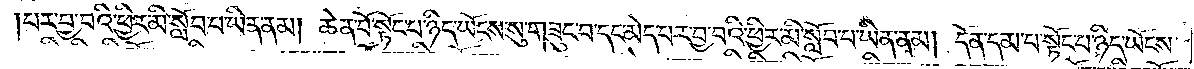པར་བྱ་བའི་ཕྱིར་མི་སློབ་པ་ཡིན་ནམ། ཆེན་པོ་སྟོང་པ་ཉིད་ཡོངས་སུ་གཟུང་བ་དང་མེད་པར་བྱ་བའི་ཕྱིར་མི་སློབ་པ་ཡིན་ནམ། དོན་དམ་པ་སྟོང་པ་ཉིད་ཡོངས་
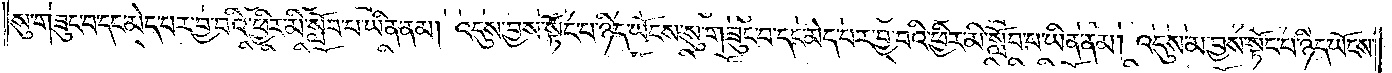སུ་གཟུང་བ་དང་མེད་པར་བྱ་བའི་ཕྱིར་མི་སློབ་པ་ཡིན་ནམ། འདུས་བྱས་སྟོང་པ་ཉིད་ཡོངས་སུ་གཟུང་བ་དང་མེད་པར་བྱ་བའི་ཕྱིར་མི་སློབ་པ་ཡིན་ནམ། འདུས་མ་བྱས་སྟོང་པ་ཉིད་ཡོངས་
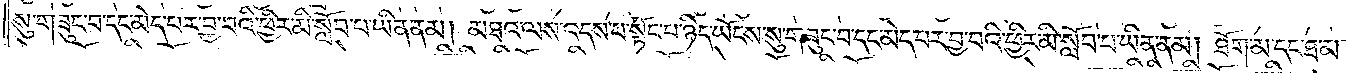སུ་གཟུང་བ་དང་མེད་པར་བྱ་བའི་ཕྱིར་མི་སློབ་པ་ཡིན་ནམ། མཐའ་ལས་འདས་པ་སྟོང་པ་ཉིད་ཡོངས་སུ་གཟུང་བ་དང་མེད་པར་བྱ་བའི་ཕྱིར་མི་སློབ་པ་ཡིན་ནམ། ཐོག་མ་དང་ཐ་མ་
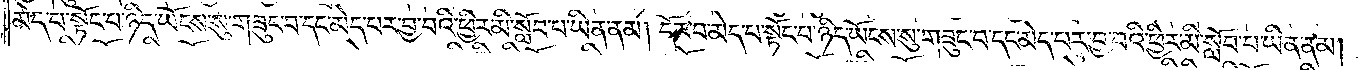མེད་པ་སྟོང་པ་ཉིད་ཡོངས་སུ་གཟུང་བ་དང་མེད་པར་བྱ་བའི་ཕྱིར་མི་སློབ་པ་ཡིན་ནམ། དོར་བ་མེད་པ་སྟོང་པ་ཉིད་ཡོངས་སུ་གཟུང་བ་དང་མེད་པར་བྱ་བའི་ཕྱིར་མི་སློབ་པ་ཡིན་ནམ།
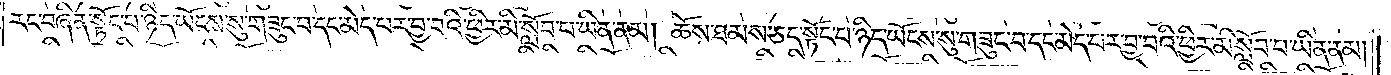རང་བཞིན་སྟོང་པ་ཉིད་ཡོངས་སུ་གཟུང་བ་དང་མེད་པར་བྱ་བའི་ཕྱིར་མི་སློབ་པ་ཡིན་ནམ། ཆོས་ཐམས་ཅད་སྟོང་པ་ཉིད་ཡོངས་སུ་གཟུང་བ་དང་མེད་པར་བྱ་བའི་ཕྱིར་མི་སློབ་པ་ཡིན་ནམ།
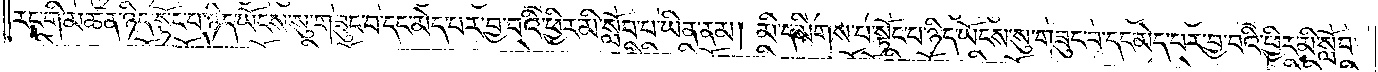རང་གི་མཚན་ཉིད་སྟོང་པ་ཉིད་ཡོངས་སུ་གཟུང་བ་དང་མེད་པར་བྱ་བའི་ཕྱིར་མི་སློབ་པ་ཡིན་ནམ། མི་དམིགས་པ་སྟོང་པ་ཉིད་ཡོངས་སུ་གཟུང་བ་དང་མེད་པར་བྱ་བའི་ཕྱིར་མི་སློབ་
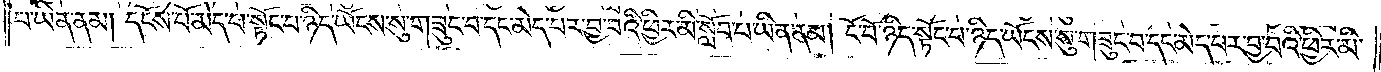པ་ཡིན་ནམ། དངོས་པོ་མེད་པ་སྟོང་པ་ཉིད་ཡོངས་སུ་གཟུང་བ་དང་མེད་པར་བྱ་བའི་ཕྱིར་མི་སློབ་པ་ཡིན་ནམ། ངོ་བོ་ཉིད་སྟོང་པ་ཉིད་ཡོངས་སུ་གཟུང་བ་དང་མེད་པར་བྱ་བའི་ཕྱིར་མི་
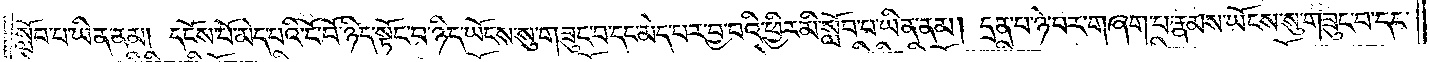སློབ་པ་ཡིན་ནམ། དངོས་པོ་མེད་པའི་ངོ་བོ་ཉིད་སྟོང་པ་ཉིད་ཡོངས་སུ་གཟུང་བ་དང་མེད་པར་བྱ་བའི་ཕྱིར་མི་སློབ་པ་ཡིན་ནམ། དྲན་པ་ཉེ་བར་གཞག་པ་རྣམས་ཡོངས་སུ་གཟུང་བ་དང་
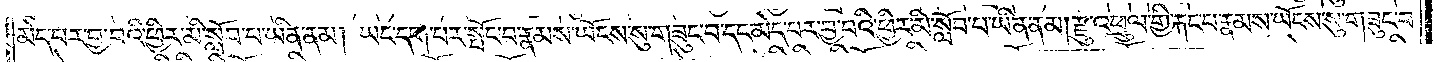མེད་པར་བྱ་བའི་ཕྱིར་མི་སློབ་པ་ཡིན་ནམ། ཡང་དག་པར་སྤོང་བ་རྣམས་ཡོངས་སུ་གཟུང་བ་དང་མེད་པར་བྱ་བའི་ཕྱིར་མི་སློབ་པ་ཡིན་ནམ། རྫུ་འཕྲུལ་གྱི་རྐང་པ་རྣམས་ཡོངས་སུ་གཟུང་བ་
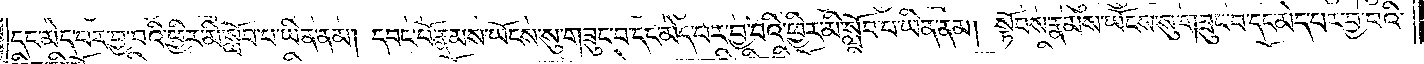དང་མེད་པར་བྱ་བའི་ཕྱིར་མི་སློབ་པ་ཡིན་ནམ། དབང་པོ་རྣམས་ཡོངས་སུ་གཟུང་བ་དང་མེད་པར་བྱ་བའི་ཕྱིར་མི་སློབ་པ་ཡིན་ནམ། སྟོབས་རྣམས་ཡོངས་སུ་གཟུང་བ་དང་མེད་པར་བྱ་བའི་
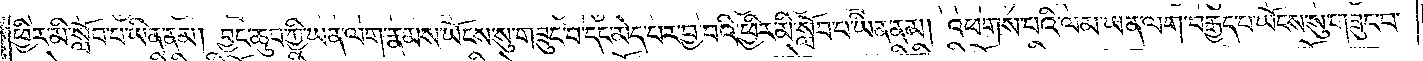ཕྱིར་མི་སློབ་པ་ཡིན་ནམ། བྱང་ཆུབ་ཀྱི་ཡན་ལག་རྣམས་ཡོངས་སུ་གཟུང་བ་དང་མེད་པར་བྱ་བའི་ཕྱིར་མི་སློབ་པ་ཡིན་ནམ། འཕགས་པའི་ལམ་ཡན་ལག་བརྒྱད་པ་ཡོངས་སུ་གཟུང་བ་
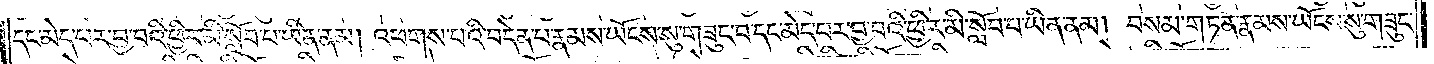དང་མེད་པར་བྱ་བའི་ཕྱིར་མི་སློབ་པ་ཡིན་ནམ། འཕགས་པའི་བདེན་པ་རྣམས་ཡོངས་སུ་གཟུང་བ་དང་མེད་པར་བྱ་བའི་ཕྱིར་མི་སློབ་པ་ཡིན་ནམ། བསམ་གཏན་རྣམས་ཡོངས་སུ་གཟུང་
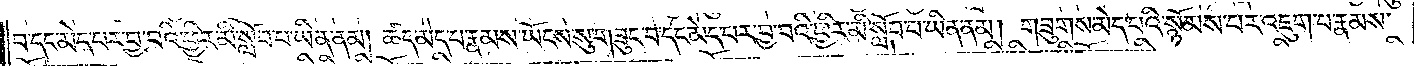བ་དང་མེད་པར་བྱ་བའི་ཕྱིར་མི་སློབ་པ་ཡིན་ནམ། ཚད་མེད་པ་རྣམས་ཡོངས་སུ་གཟུང་བ་དང་མེད་པར་བྱ་བའི་ཕྱིར་མི་སློབ་པ་ཡིན་ནམ། གཟུགས་མེད་པའི་སྙོམས་པར་འཇུག་པ་རྣམས་
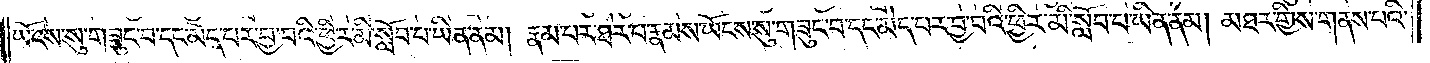ཡོངས་སུ་གཟུང་བ་དང་མེད་པར་བྱ་བའི་ཕྱིར་མི་སློབ་པ་ཡིན་ནམ། རྣམ་པར་ཐར་པ་རྣམས་ཡོངས་སུ་གཟུང་བ་དང་མེད་པར་བྱ་བའི་ཕྱིར་མི་སློབ་པ་ཡིན་ནམ། མཐར་གྱིས་གནས་པའི་
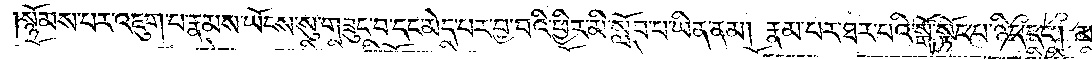སྙོམས་པར་འཇུག་པ་རྣམས་ཡོངས་སུ་གཟུང་བ་དང་མེད་པར་བྱ་བའི་ཕྱིར་མི་སློབ་པ་ཡིན་ནམ། རྣམ་པར་ཐར་པའི་སྒོ་སྟོང་པ་ཉིད་དང༌། མཚན་མ་
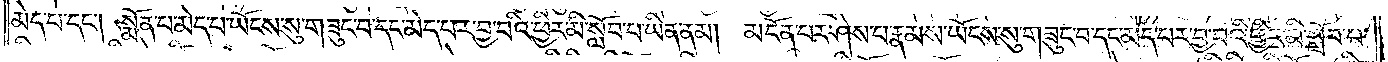མེད་པ་དང༌། སྨོན་པ་མེད་པ་ཡོངས་སུ་གཟུང་བ་དང་མེད་པར་བྱ་བའི་ཕྱིར་མི་སློབ་པ་ཡིན་ནམ། མངོན་པར་ཤེས་པ་རྣམས་ཡོངས་སུ་གཟུང་བ་དང་མེད་པར་བྱ་བའི་ཕྱིར་མི་སློབ་པ་
